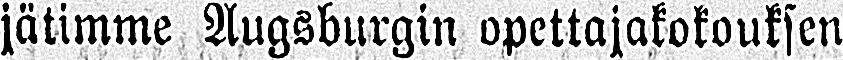jätimme Augsburgin opettajakokouksen
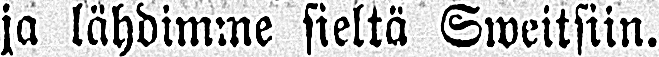ja lähdimme sieltä Sweitsiin.
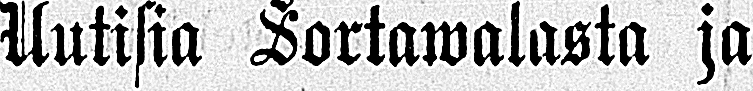Uutisia Sortawalasta ja
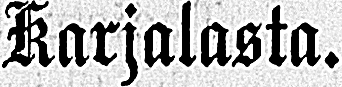Karjalasta.
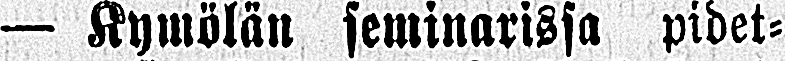— Kymölän seminarissa pidet-
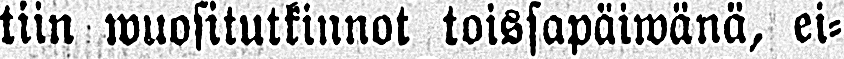tiin wuositutkinnot toissapäiwänä, ei-
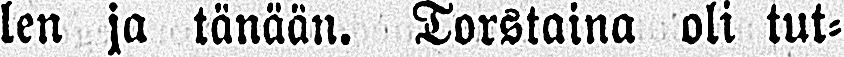len ja tänään. Torstaina oli tut-
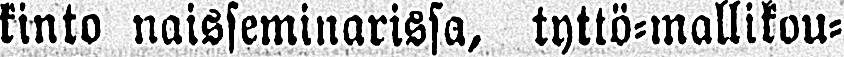kinto naisseminarissa, tyttö-mallikou-
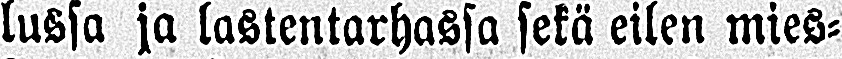lussa ja lastentarhassa sekä eilen mies-
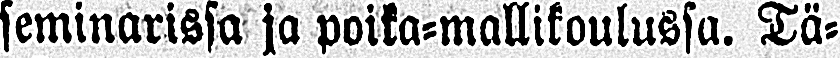seminarissa ja poika-mallikoulussa. Tä-
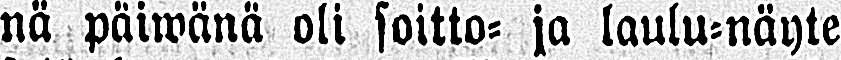nä päiwänä oli soitto- ja laulu-näyte
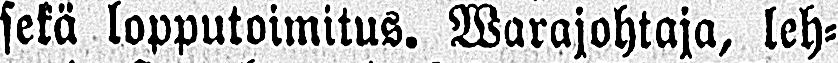sekä lopputoimitus. Warajohtaja, leh-
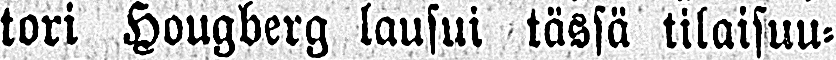tori Hougberg lausui tässä tilaisuu-
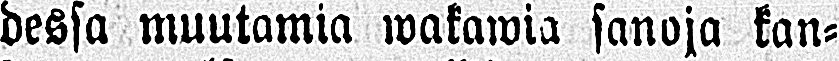dessa muutamia wakawia sanoja kan-
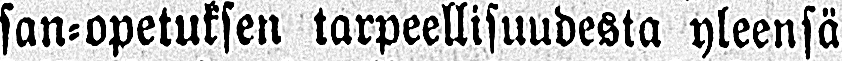san-opetuksen tarpeellisuudesta yleensä
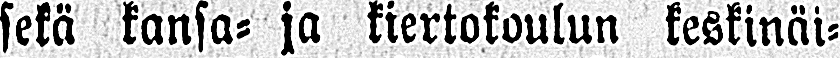sekä kansa- ja kiertokoulun keskinäi-
